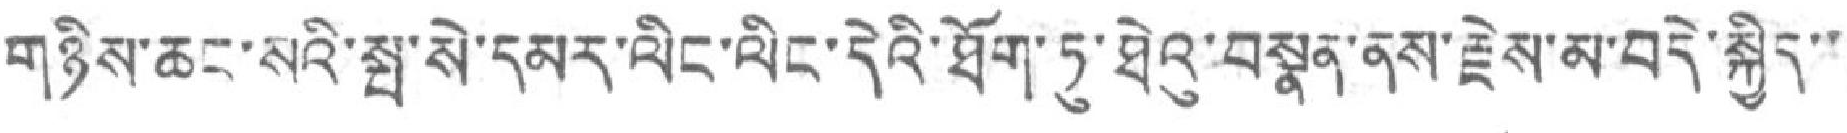གཉིས་ཆང་སའི་སྤ་སེ་དམར་ལིང་ལིང་དེའི་ཐོག་ཏུ་ཐེའུ་བསྣན་ནས་རྗེས་མ་བདེ་སྐྱེད་་
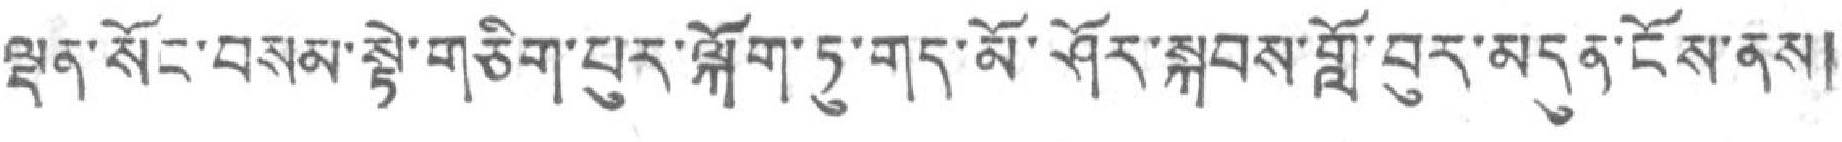ལྡན་སོང་བསམ་སྟེ་གཅིག་པུར་ལྐོག་ཏུ་གད་མོ་ཤོར་སྐབས་གློ་བུར་མདུན་ངོས་ནས།
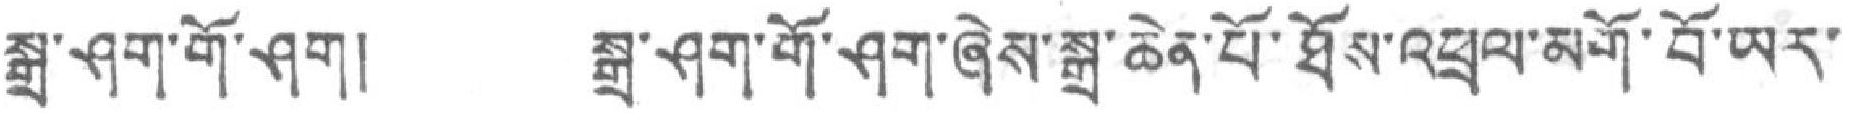སྒྲ་ཤག་གོ་ཤག། སྒྲ་ཤག་གོ་ཤག་ཞེས་སྒྲ་ཆེན་པོ་ཐོས་འཕྲལ་མགོ་བོ་ཡར་
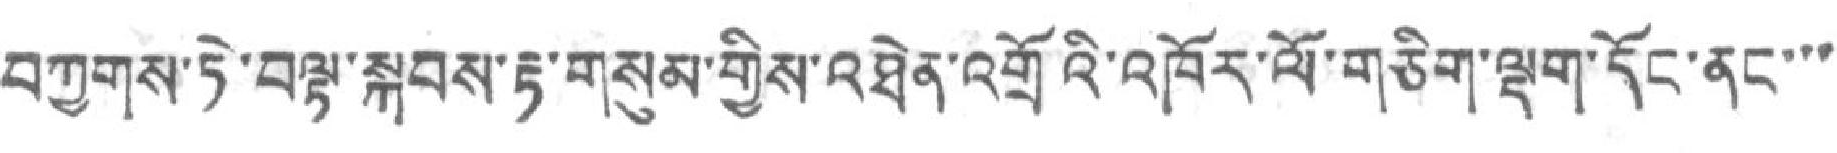བཀྱགས་ཏེ་བལྟ་སྐབས་རྟ་གསུམ་གྱིས་འཐེན་འགྲོའི་འཁོར་ལོ་གཅིག་ལྟག་དོང་ནང་་་
